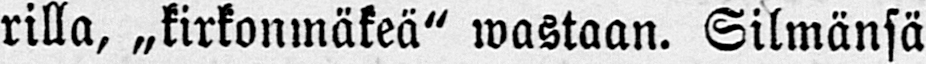rilla, „kirkonmäkeä" wastaan. Silmänsä
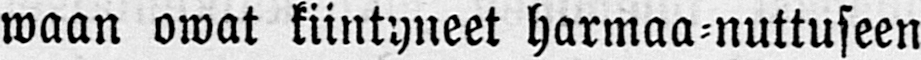waan owat kiintyneet harmaa-nuttuseen
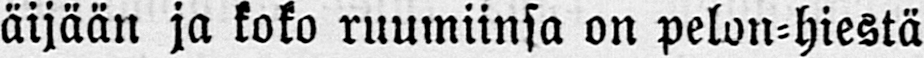äijään ja koko ruumiinsa on pelon-hiestä
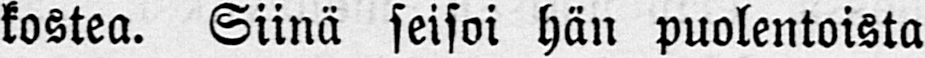kostea. Siinä seisoi hän puolentoista
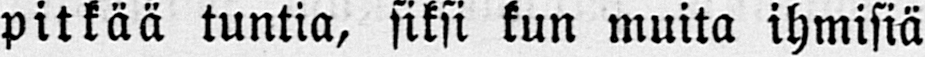pitkää tuntia, siksi kun muita ihmisiä
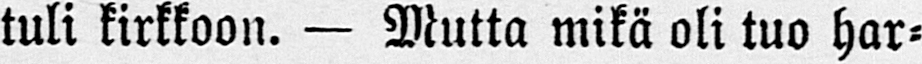tuli kirkkoon. — Mutta mikä oli tuo har-
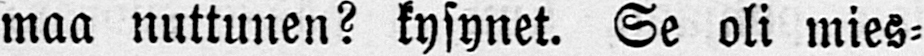maa nuttunen? kysynet. Se oli mies-
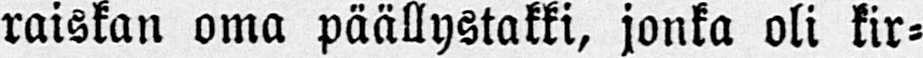raiskan oma päällystakki, jonka oli kir-
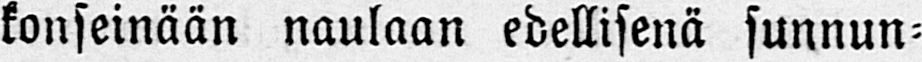konseinään naulaan edellisenä sunnun-
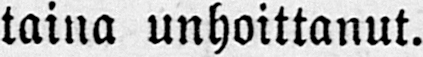taina unhoittanut.
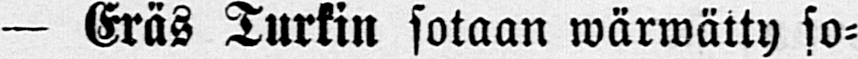— Eräs Turkin sotaan wärwätty so-
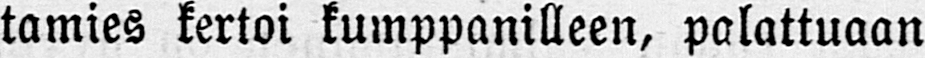tamies kertoi kumppanilleen, palattuaan
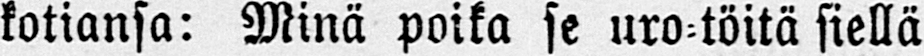kotiansa: Minä poika se uro-töitä siellä
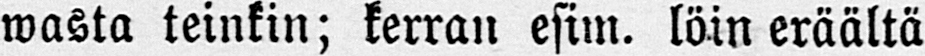wasto teinkin; kerran esim. löin eräältä
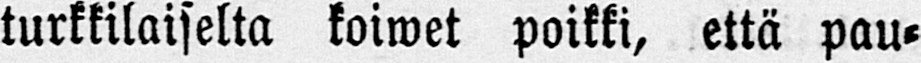turkkilaiselta koiwet poikki, että pau-
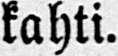kahti.
